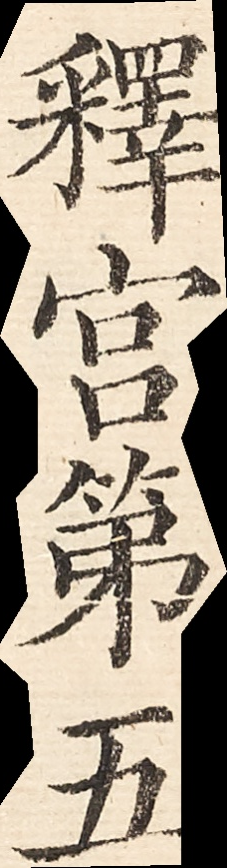釋宮第五
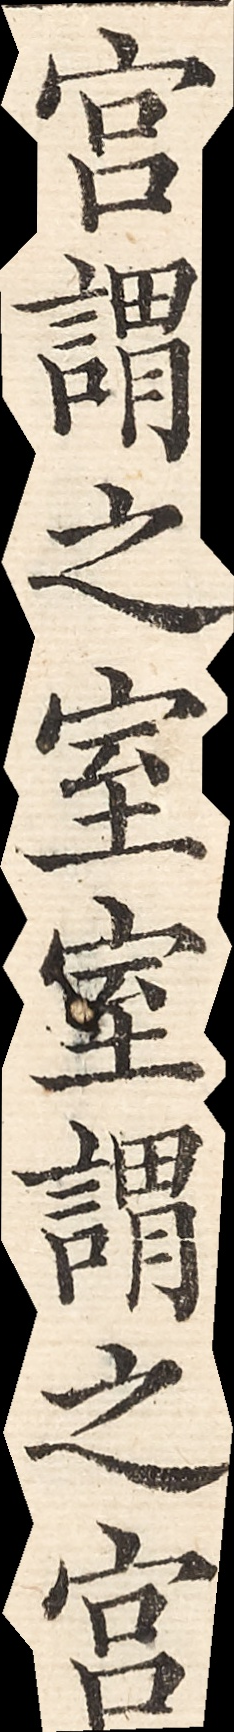宮謂之室室謂之宮
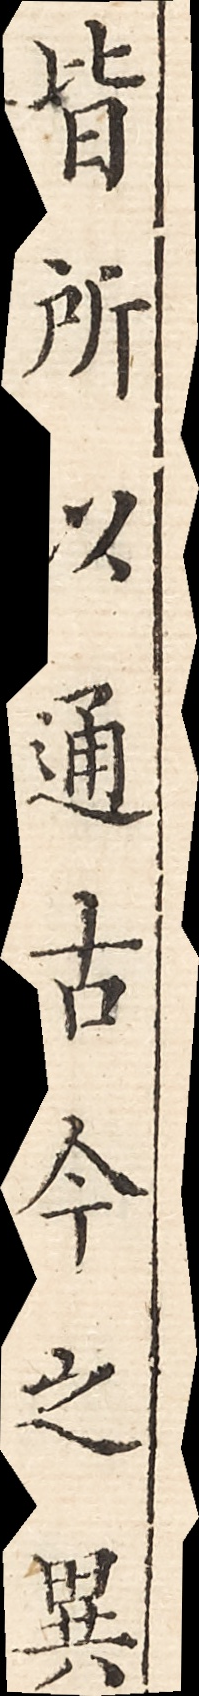皆所以通古今之異
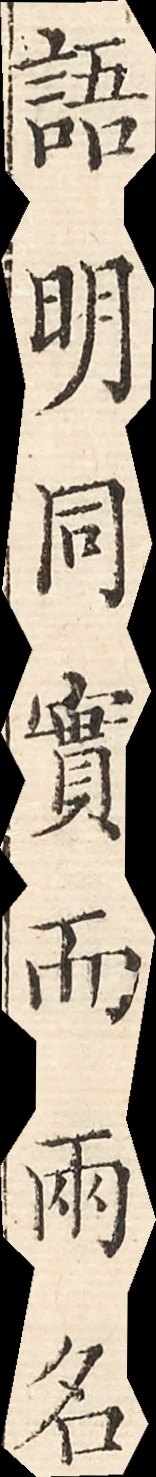語明同實而兩名
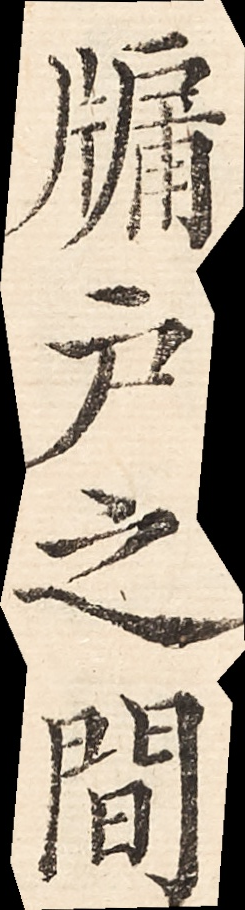牖戶之間
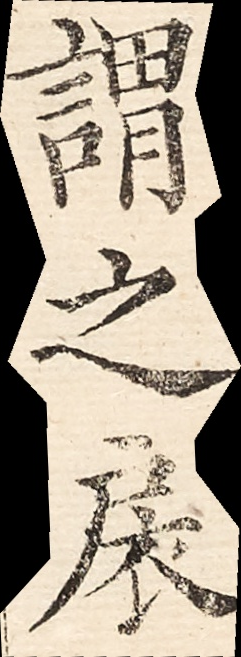謂之扆
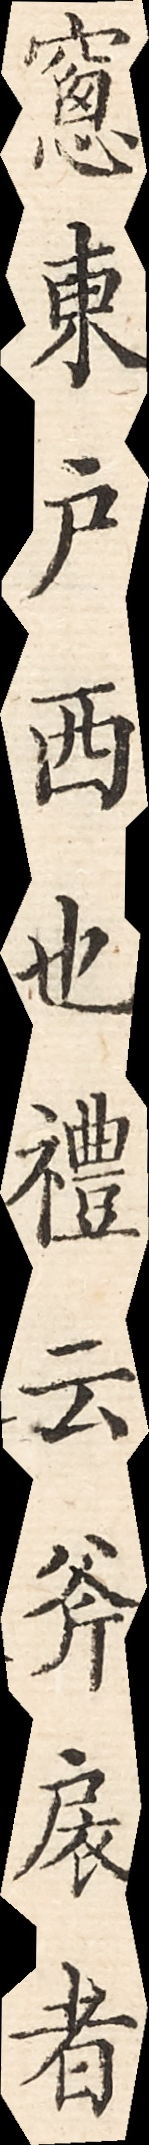窗東戶西也禮雲斧扆者
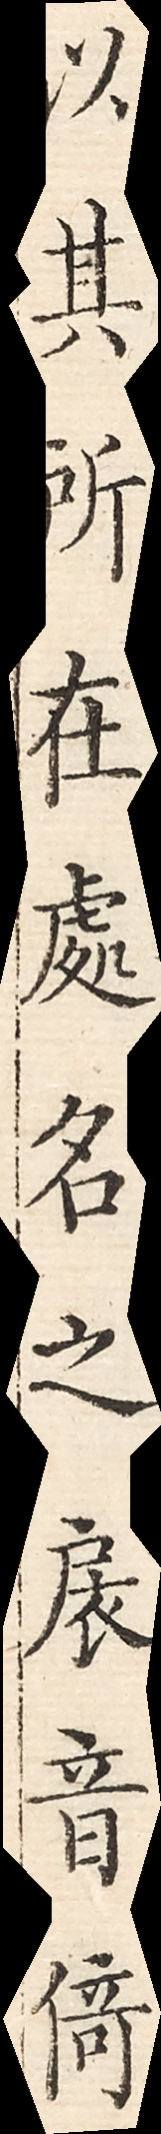以其所在處名之扆音倚
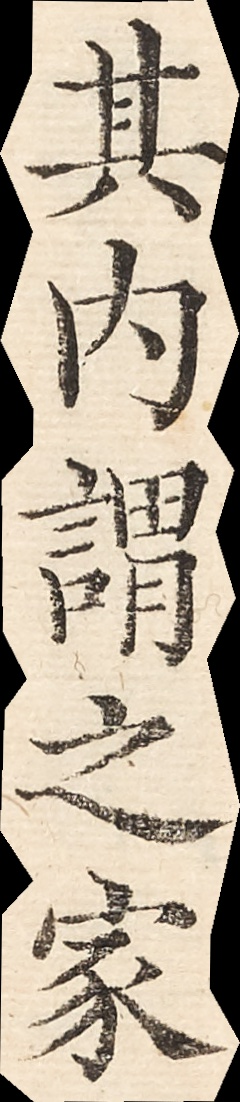其內謂之家
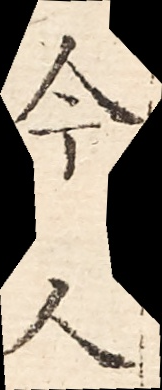今人
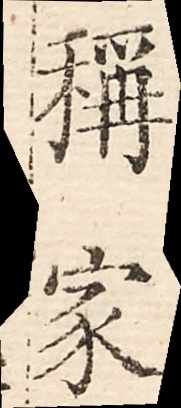稱家
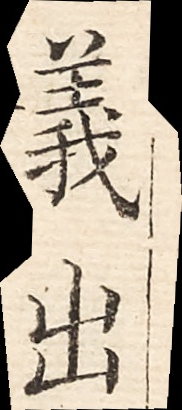義出
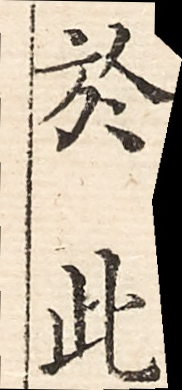於此
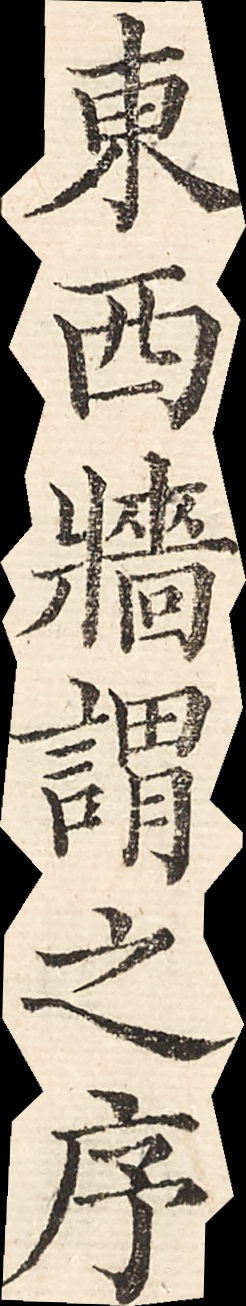東西牆謂之序
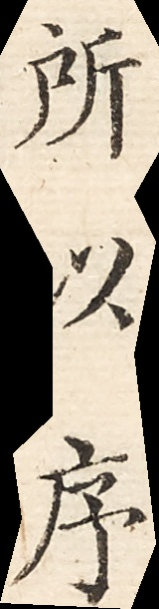所以序
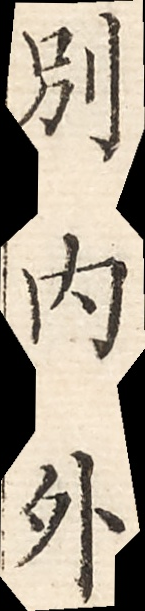別內外
